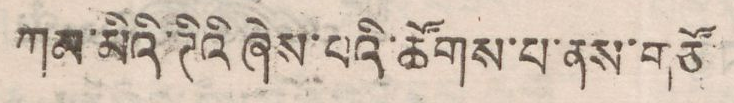ཀམ་མིའི་ཊིའི ཞེས་པའི་ཚོགས་པ་ནས་གཙོ
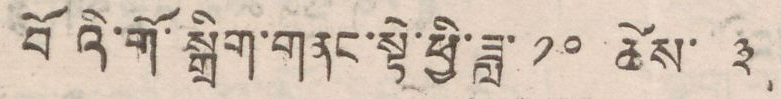བོའི་གོ་སྒྲིག་གནང་སྟེ་ཕྱི་ཟླ་ ༡༠ ཚེས་ ༣
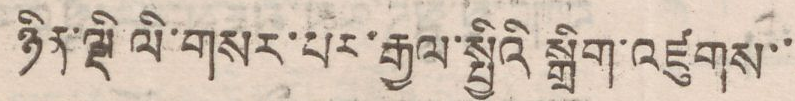ཉིན་ལྡི་ལི་གསར་པར་རྒྱལ་སྤྱིའི སྒྲིག་འཛུགས་་
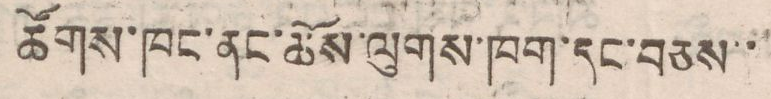ཚོགས་ཁང་ནང་ཆོས་ལུགས་ཁག་དང་བཅས་་
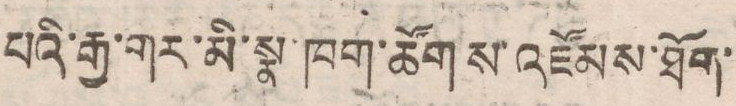པའི་རྒྱ་གར་མི་སྣ་ཁག་ཚོགས་འཛོམས་ཐོག་
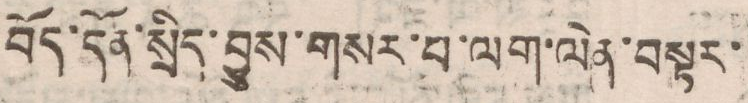བོད་དོན་སྲིད་བྱུས་གསར་པ་ལག་ལེན་བསྟར་་
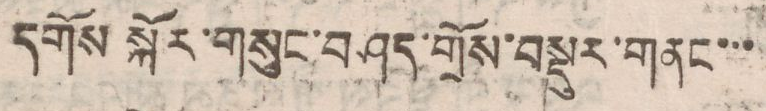དགོས་སྐོར་གསུང་བཤད་གྲོས་བསྡུར་གནང་་་
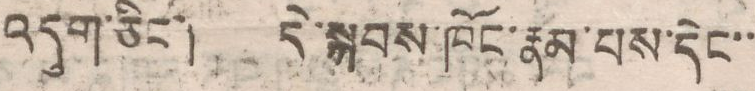འདུག་ཅིང། དེ་སྐབས་ཁོང་རྣམ་པས་དེང་་
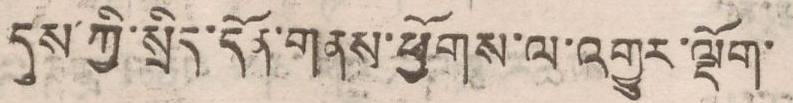དུས་ཀྱི་སྲིད་དོན་གནས་ཕྱོགས་ལ་འགྱུར་ལྡོག་
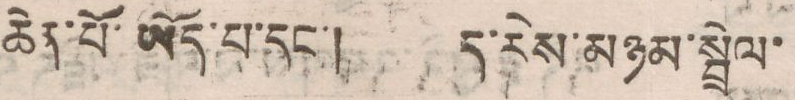ཆེན་པོ་ཡོད་པ་དང་། ད་རེས་མཉམ་སྦྲེལ་
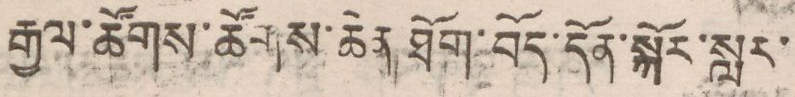རྒྱལ་ཚོགས་ཚོགས་ཆེན་ ཐོག་བོད་དོན་སྐོར་སླར་
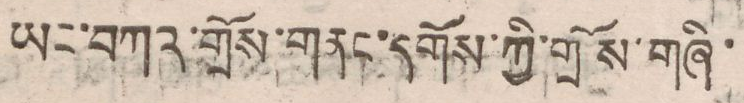ཡང་བཀའ་གྲོས་གནང་དགོས་ཀྱི་གྲོས་གཞི་
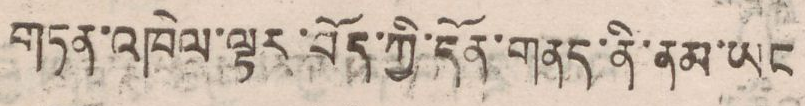གཏན་འཁེལ་ལྟར་བོད་ཀྱི་དོན་གནད་ནི་ནམ་ཡང
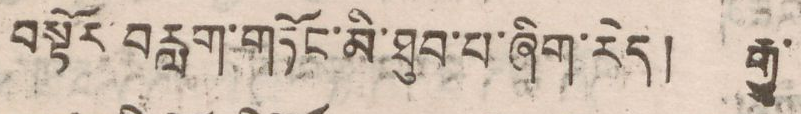བསྟོར་བརླག་གཏོང་མི་ཐུབ་པ་ཞིག་རེད། རྒྱུ་
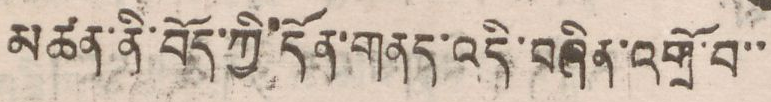མཚན་ནི་བོད་ཀྱི་དོན་གནད་འདི་བཞིན་འགྲོ་བ་་
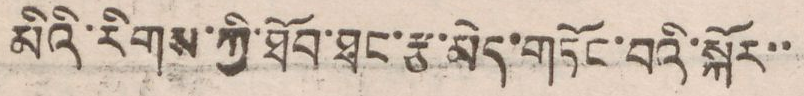མིའི་རིགས་ཀྱི་ཐོབ་ཐང་རྩ་མེད་གཏོང་བའི་སྐོར་་
